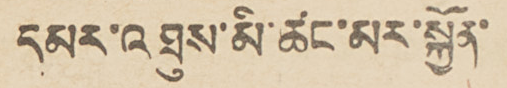དམར་འཐུས་མི་ཚང་མར་སྐྱོན་
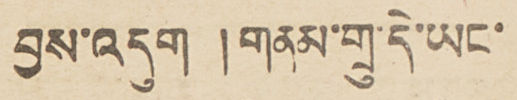བྱས་འདུག །གནམ་གྲུ་དེ་ཡང་
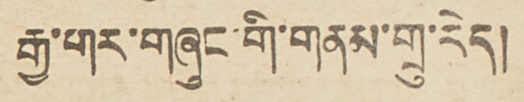རྒྱ་གར་གཞུང་གི་གནམ་གྲུ་རེད།
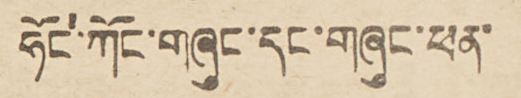ཧོང་ཀོང་གཞུང་དང་གཞུང་ཕན་
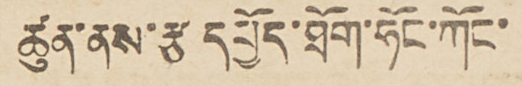ཚུན་ནས་རྩ དཔྱོད་ཐོག་ཧོང་ཀོང་
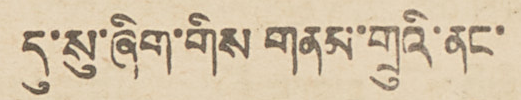དུ་སུ་ཞིག་གིས གནམ་གྲུའི་ནང་
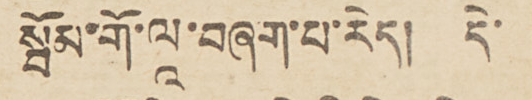སྦོམ་གོ་ལཱ་བཞག་པ་རེད། དེ་
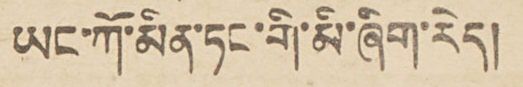ཡང་ཀོ་མིན་ཏང་གི་མི་ཞིག་རེད།
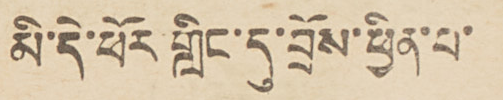མི་དེ་ཕོར གླིང་དུ་བྲོས་ཕྱིན་པ་
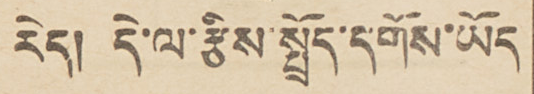རེད། དེ་ལ་རྩིས་སྤྲོད་དགོས་ཡོད
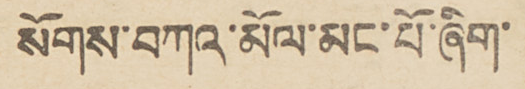སོགས་བཀའ་མོལ་མང་པོ་ཞིག་
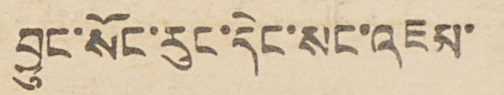བྱུང་སོང་རུང་དེང་སང་འཇམ་
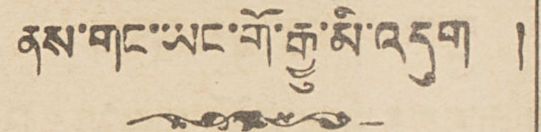ནས་གང་ཡང་གོ་རྒྱུ་མི་འདུག  །
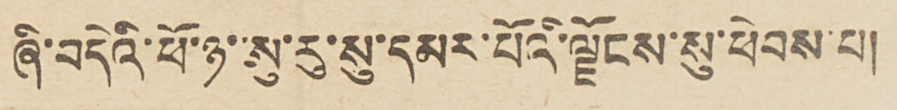ཞི་བདེའི་ཕོ་ཉ་ཨུ་རུ་སུ་དམར་པོའི་ལྗོངས་སུ་ཕེབས་པ།
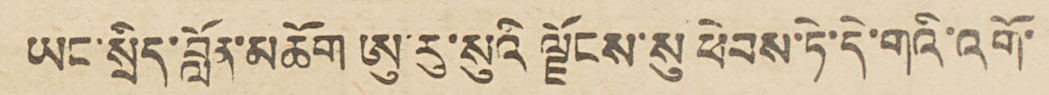ཡང་སྲིད་བློན་མཆོག ཨུ་རུ་སུའི ལྗོངས་སུ ཕེབས་ཏེ་དེ་གའི་འགོ་
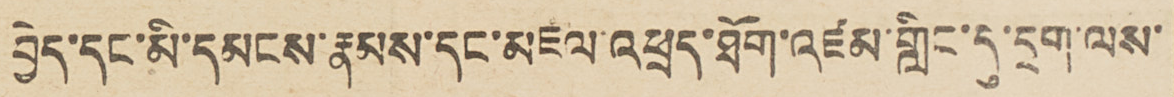བྱེད་དང་མི་དམངས་རྣམས་དང་མཇལ་འཕྲད་ཐོག་འཛམ་གླིང་དུ་དྲག་ལས་
